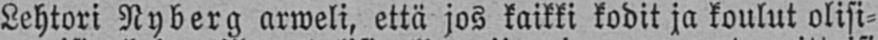Lehtori Nyberg arweli, että jos kaikki kodit ja koulut olisi-
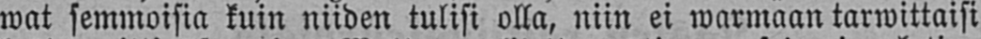wat semmoisia kuin niiden tulisi olla, niin ei warmaan tarwittaisi
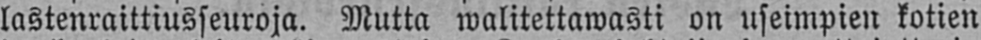lastenraittiusseuroja. Mutta walitettawasti on useimpien kotien
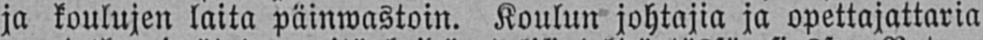ja koulujen laita päinwastoin. Koulun johtajia ja opettajattaria
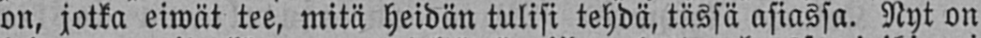on, jotka eiwät tee, mitä heidän tulisi tehdä, tässä asiassa. Nyt on
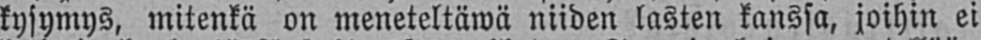kysymys, mitenkä on meneteltäwä niiden lasten kanssa, joihin ei
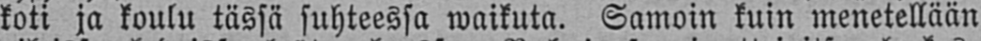koti ja koulu tässä suhteessa waikuta. Samoin kuin menetellään
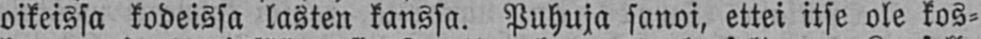oikeissa kodeissa lasten kanssa. Puhuja sanoi, ettei itse ole kos-
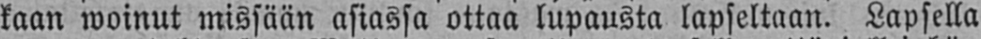kaan woinut missään asiassa ottaa lupausta lapseltaan. Lapsella
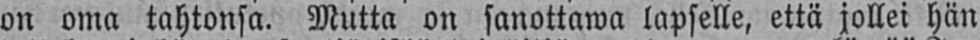on oma tahtonsa. Mutta on sanottawa lapselle, että jollei hän
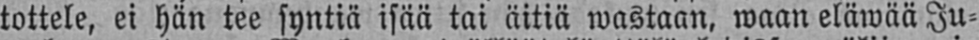tattele, ei hän tee syntiä isää tai äitiä wastaan, waan eläwää Ju-
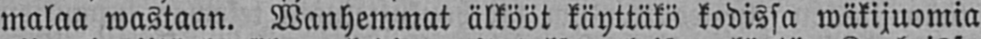malaa wastaan. Wanhemmat älkööt käyttäkö kodissa wäkijuomia
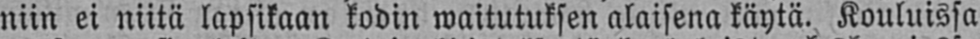niin ei niitä lapsikaan kodin waitutuksen alaisena käytä. Kouluissa
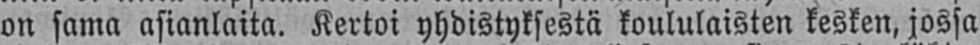on sama asianlaita. Kertoi yhdistyksestä koululaisten kesken, jossa
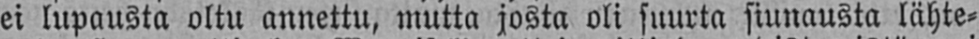ei lupausta oltu annettu, mutta josta oli suurta siunausta lähte-
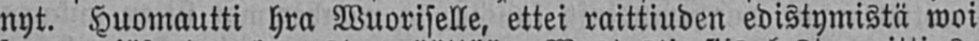nyt. Huomautti hra Wuoriselle, ettei raittiuden edistymistä woi
